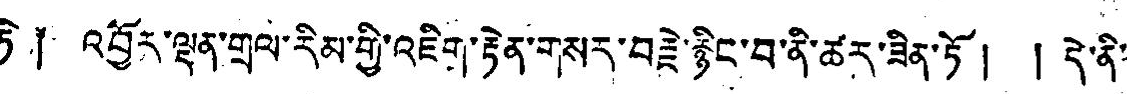ཏེ ༐ འབྱོར་ལྡན་གྲལ་རིམ་གྱི་འཇིག་རྟེན་གསར་བརྗེ་རྙིང་བ་ནི་ཚར་ཟིན་ཏོ ། ། དེ་ནི་
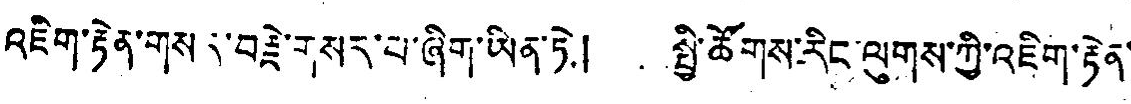འཇིག་རྟེན་གསར་བརྗེ་གསར་པ་ཞིག་ཡིན་ཏེ། སྤྱི་ཚོགས་རིང་ལུགས་ཀྱི་འཇིག་རྟེན་
